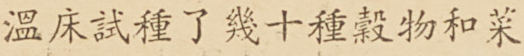溫床試種了幾十種穀物和菜
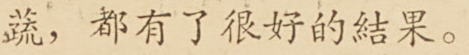蔬，都有了很好的結果。
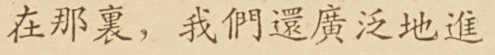在那裏，我們還廣泛地進
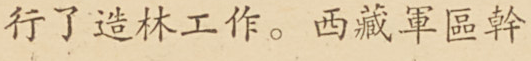行了造林工作。西藏軍區幹
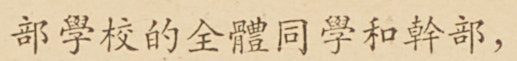部學校的全體同學和幹部，
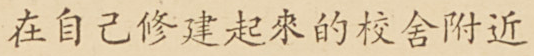在自己修建起來的校舍附近
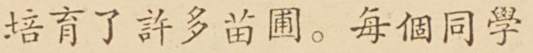培育了許多苗圃。每個同學
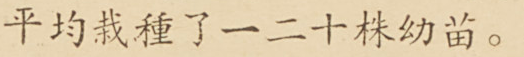平均栽種了一二十株幼苗。
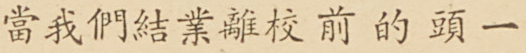當我們結業離校前的頭一
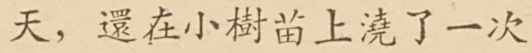天，還在小樹苗上澆了一次
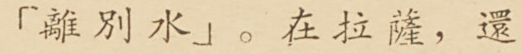「離別水」。在拉薩，還
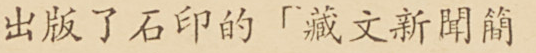出版了石印的「藏文新聞簡
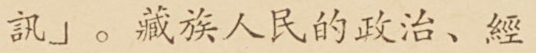訊」。藏族人民的政治、經
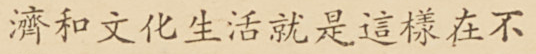濟和文化生活就是這樣在不
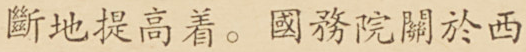斷地提高着。國務院關於西
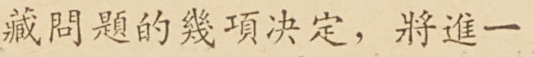藏問題的幾項決定，將進一
